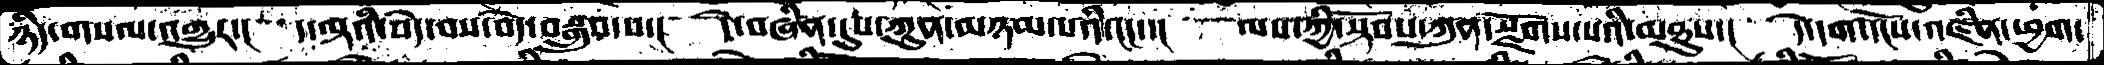ཉིད་གསལ་འགྱུར་། ད་ལྟའི་བདེ་བས་བདེ་བསྒྲུབ་པ་། དེ་བཞིན་དུས་ཀུན་མཉམ་པའི་ངང་་། ལས་ཀྱི་སྟོབས་ཀུན་སྫོགས་པའི་མཐུས་། དེ་དག་དངོས་འཛིན་ཕྱག་
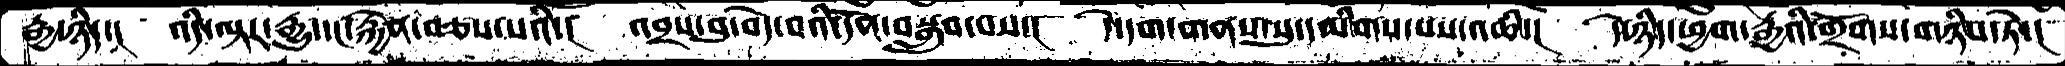རྒྱ་ཉིད་།  འདི་ལྟར་རྒྱུ་དང་རྐྱེན་བཅས་པའི་།  འབྲས་བུ་བདེ་བའི་དོན་བསྒྲུབ་པས་།  དེ་དག་གནས་སུ་དམིགས་པས་འཆི་།  དེ་ཉིད་ཕྱག་རྒྱའི་གྲོགས་གཉིས་ཏེ་།
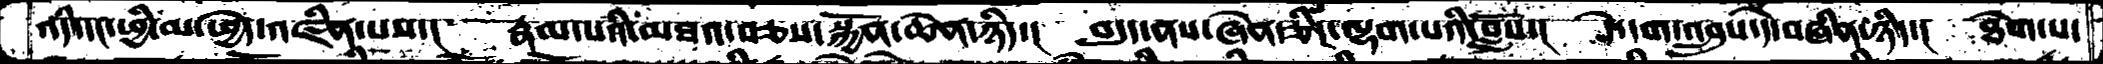འདི་དང་ཕྱི་མ་ཕྱེད་འཛིན་པས་།  རྣམ་པའི་མཐའ་བཅས་སྐྱོན་ཆེན་ཉིད་།  བདུད་ནས་ཞེན་ཅིང་ལྷག་པའི་བློས་།  དེ་དག་འབྲུས་དེ་བཞིན་ཉིད་།  ཐེག་པ་
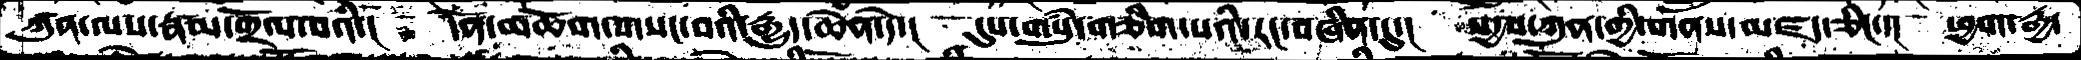ཀུན་ལས་རྣམ་གྲོལ་བའི་།  དོན་མཆོག་གསང་བའི་རྒྱུད་ཆེན་དེ་།  དུས་གསུཾ་གཅིག་པའི་རང་བཞིན་དུ་།  སདྱས་ཀུན་གྱི་གནས་མཛད་ཅིང་་།  ཕྱག་རྒྱ་
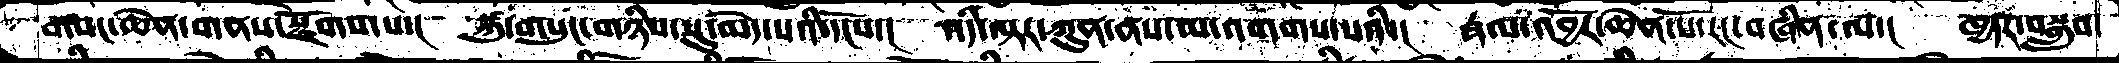གསང་ཆེན་གནས་སྫོགས་པ་།   སྐུ་གསུང་གཉིས་སུ་མེད་པའི་དངོས་།  འདི་ལྟར་ཀུན་ནས་མ་འགགས་པའི་།  རྣལ་འབྱོར་ཆེན་པོ་རང་བཞིན་ལ་།  ཁྱདར་བསྒྲུབ་
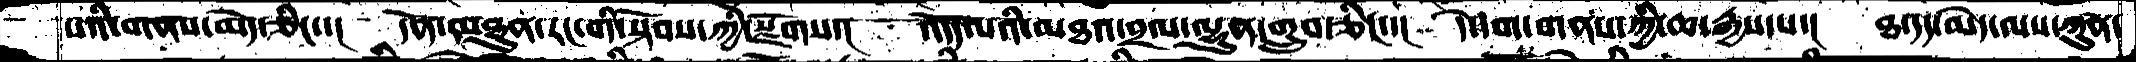པའི་གནས་མེད་ཅིང་་།  དོན་མཐུན་རང་གི་སྟོབས་ཀྱི་སྫོགས་།  འདོད་པའི་མཐའ་བྲལ་ལྷུན་གྲུབ་ཅིང་་།  དེ་དག་གནས་ཀྱི་ཆ་རྒྱས་པ་།  ཐ་དད་མེད་ལས་ཀུན་
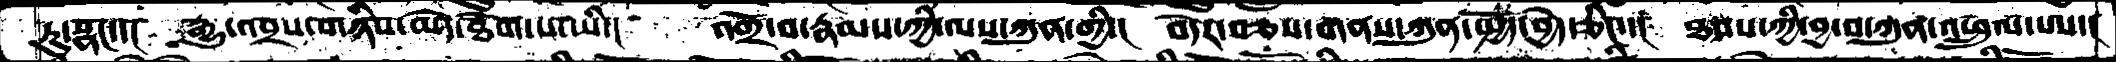ཏུ་སྣང་་།  རྒྱུ་འབྲས་གཉིས་མེད་ཐོག་པ་ཡི་།  འགྲོ་བ་རྣམས་ཀྱི་ལས་ཀུན་གྱི་།  བདེར་བཅས་གནས་ཀུན་སྤྱོད་བྱེད་ཅིང་་།  ཐབས་ཀྱི་བྱ་བ་ཀུན་འཕྲུལ་པས་།
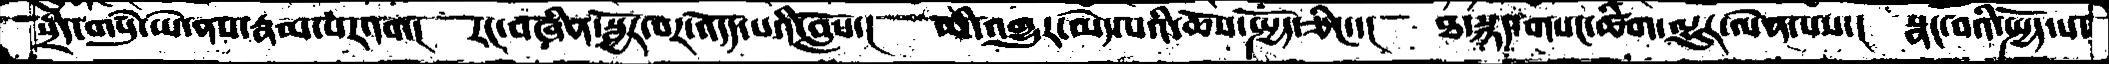སྲིད་གསུཾ་ཡེ་ནས་རྣམ་པར་དག།  རང་བཞིན་སྦྱོར་བར་འདོད་པའི་བློས་།  མི་འགྱུར་མེད་པའི་ཆོས་སྤྱོད་ཅིང་་།  ཐ་སྙད་གསང་ཚིག་ལྷུར་ལེན་པས་།  སྣང་བའི་སྤྱོད་པ་
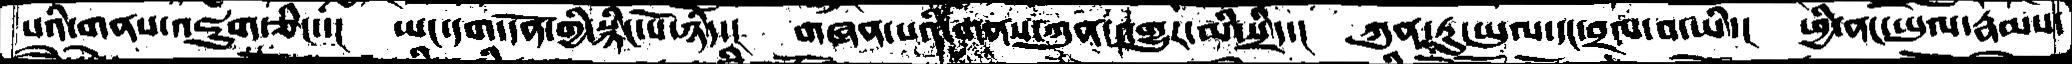པའི་གནས་འཇུག་ཅིང་་།  ཡང་དག་དོན་གྱི་སྙིང་པོ་ཉིད་།  གཞན་པའི་གནས་ཀུན་འགྱུར་མི་སྲིད་།  ཀུན་ཏུ་ཡུལ་དང་བྲལ་བ་ཡི་།  ཕྱི་ནང་ཡུལ་རྣམས་
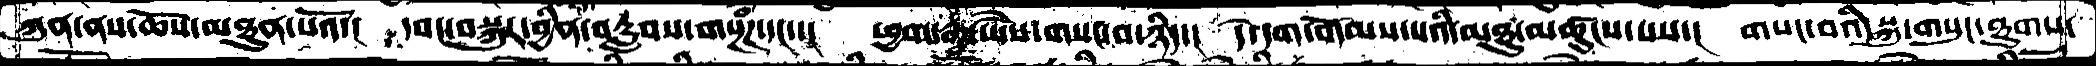ཀུན་ནས་ཆོས་མཐུན་པའོ་།   དབང་བསྐུར་བྱིན་བརླབས་གསྔཾཌ་དང་་།   ཕྱག་རྒྱ་ཡཻས་གསང་བ་ཉིད་།   དེ་དག་གོམས་པའི་མཐུ་མཚུངས་པས་།   གསང་བའི་སྐུ་གསུང་ཐུགས་
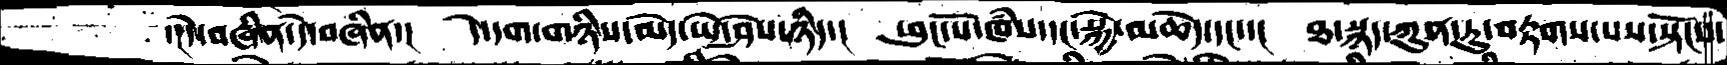་།དེེ་བཞིན་དེ་བཞིན་།    དེ་དག་གཉིས་མེད་ཡེ་ཤེས་ཉིད་།   ཕུང་པོ་ཁཾས་དང་སྐྱེ་མཆེེད་དང་་།   ཐ་སྙད་ཀུན་ཏུ་བརྟགས་པས་སྟོངས་
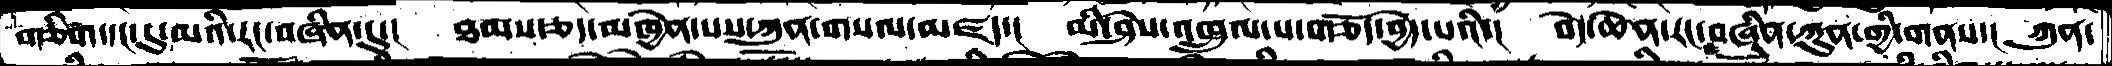གཅིག་དང་དུ་མའི་རང་བཞིན་དུ་།   ཐམས་ཅད་མཁྱེན་པས་ཀུན་གསལ་མཛད་།  མི་ཤེས་འཁྲུལ་པ་གཅོད་བྱེད་པའི་།  བདེ་ཆེན་རང་བཞིན་ཀུན་གྱི་གནས་།  ཀུན་
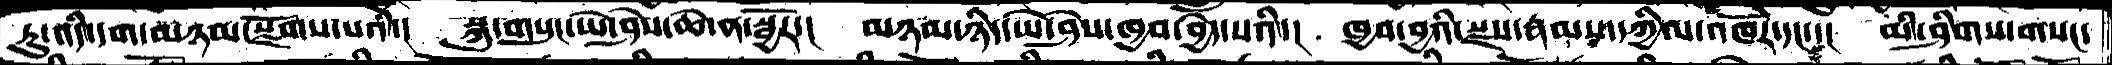ཏུ་འདི་དག་མཉམ་སྫོགས་པའི་།  སྐུ་གསུང་ཡེ་ཤེས་ཆེ་ན་སྦྱོར་། མཉམ་ཉིད་ཡེ་ཤེས་ཁྱབ་བྱེད་པའི་།  ཁྱབ་བྱའི་སྫས་རྣམས་དཀྱིལ་འཁོར་དང་་།  མི་ཤིགས་གསང་
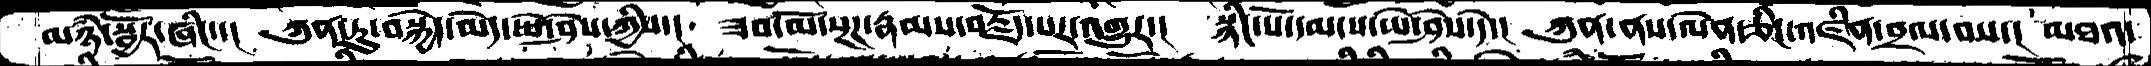མཉཾ་སྦྱོར་ཞིང་་།  ཀུན་ཏུ་བསྐྱེད་མེད་ཡེ་ཤེས་ཀྱིས་།།  ཟབ་མོ་སྔཌ་རྣམས་བརྗོད་པར་འགྱུར་།  སྙིང་པོ་དམ་པ་ཡེ་ཤེས་དེ་།  ཀུན་ནས་ལེན་ཅིང་འཛིན་བྲལ་བས་།  མཐའ་
